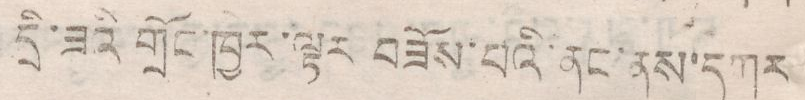དྲི་ཟའི གྲོང་ཁྱེར་ལྟར བཟོས་པའི་ནང་ནས་དགར
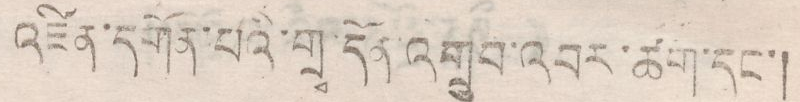འཛིན་དགོན་པའི་གྲྭ་དོན་འགྲུབ་འབར་ཚག་དང་།
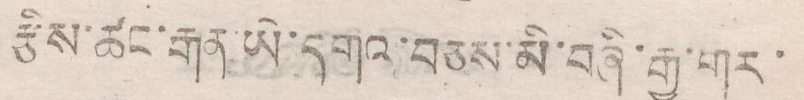རྩིས་ཚང་རྒན་ཡི་དགའ་བཅས་མི་བཞི་རྒྱ་གར་
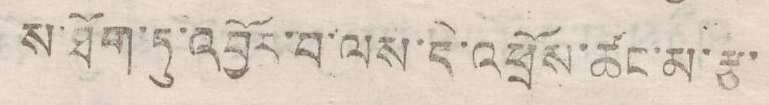ས་ཐོག་ཏུ་འབྱོར་བ་ལས་དེ་འཕྲོས་ཚང་མ་རྩ་
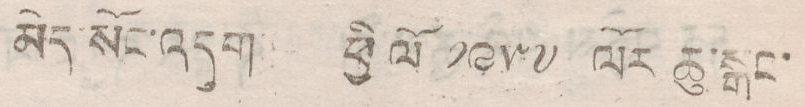མེད་སོང་འདུག ཕྱི ལོ་ ༡༩༥༧ ལོར ཆུ་རྒང་
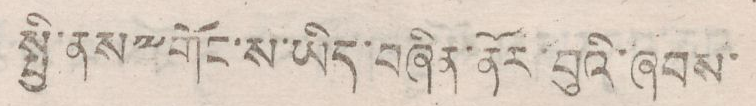སྤྱི་ནས་༸གོང་ས་ཡིད་བཞིན་ནོར་བུའི་ཞབས་
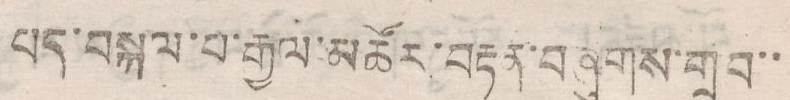པད་བསྐལ་པ་རྒྱལ་མཚོར་བརྟན་བཞུགས་གྲུབ་་
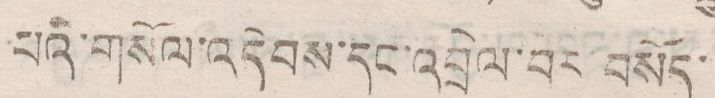པའི་གསོལ་འདེབས་དང་འབྲེལ་བར་བསོད་
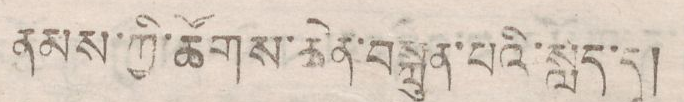ནམས་ཀྱི་ཚོགས་ཆེན་བསྐྲུན་པའི་སླད་དུ།
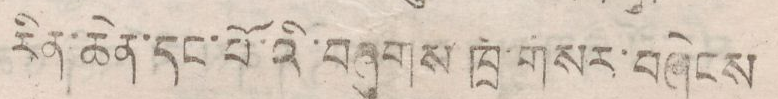རིན་ཆེན་དང་པོའི་བཞུགས་ཁྲི་གསར་བཞེངས
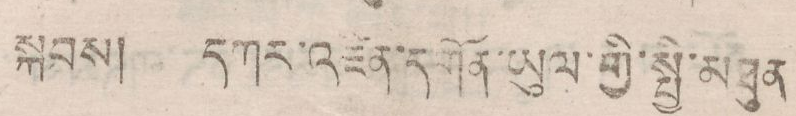སྐབས། དཀར་འཛིན་དགོན་ཡུལ་གྱི་སྤྱི་མཐུན
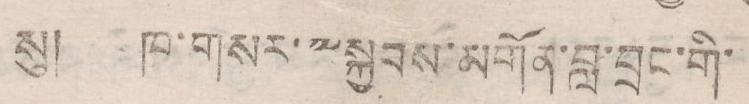སུ། ཁ་གསར་༸སྐྱབས་མགོན་བླ་བྲང་གི་
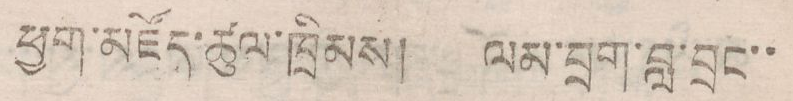ཕྱག་འཛོད་ཚུལ་ཁྲིམས། ལམ་བྲག་བླ་བྲང་་
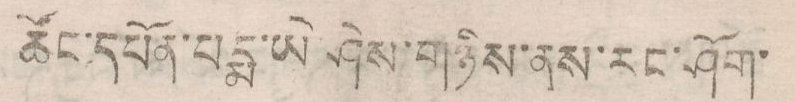ཚོང་དཔོན་པདྨ་ཡེ་ཤེས་གཉིས་ནས་རང་ཤོག་
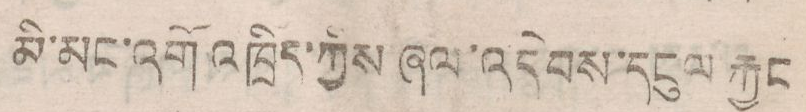མི་མང་འགོ འཁྲིད་ཀྱིས ཞལ་འདེབས་དངུལ རྐྱང
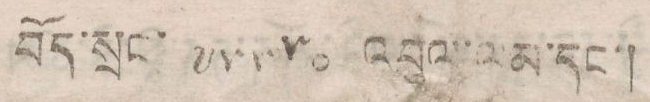བོད་སྲང་ ༧༥༥༥༠ འབུལ་ལམ་དང་།
